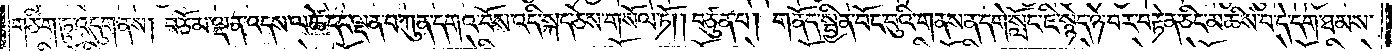གཅིག་ཏུ་འདུག་ནས། བཅོམ་ལྡན་འདས་ལ་ཚེ་དང་ལྡན་པ་ཀུན་དགའ་བོས་འདི་སྐད་ཅེས་གསོལ་ཏོ། །བཙུན་པ། གནོད་སྦྱིན་བོང་བུའི་གནས་ན་དགེ་སློང་ཇི་སྙེད་ཉེ་བར་བརྟེན་ཅིང་མཆིས་པ་དེ་དག་ཐམས་
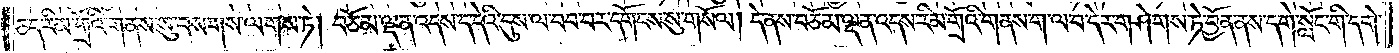ཅད་རིམ་གྲོའི་གནས་སུ་བསགས་ལགས་ཏེ། བཅོམ་ལྡན་འདས་ད་དེའི་དུས་ལ་བབ་པར་དགོངས་སུ་གསོལ། །དེ་ནས་བཅོམ་ལྡན་འདས་རིམ་གྲོའི་གནས་ག་ལ་བ་དེར་གཤེགས་ཏེ་བྱོན་ནས་དགེ་སློང་གི་དགེ་
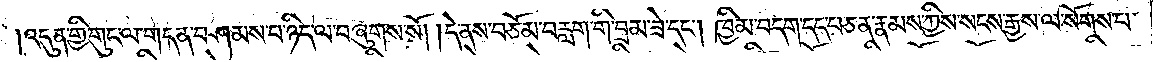འདུན་གྱི་གུང་ལ་གདན་བཤམས་པ་ཉིད་ལ་བཞུགས་སོ། །དེ་ནས་བཅོམ་བརླག་གི་བྲམ་ཟེ་དང༌། ཁྱིམ་བདག་དད་པ་ཅན་རྣམས་ཀྱིས་སངས་རྒྱས་ལ་སོགས་པ་
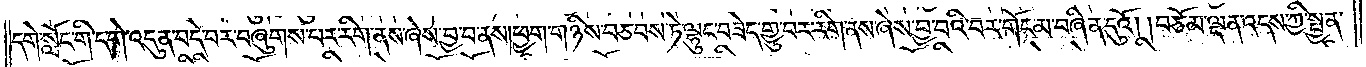དགེ་སློང་གི་དགེ་འདུན་བདེ་བར་བཞུགས་པར་རིག་ནས་ཞེས་བྱ་བ་ནས། ཕྱག་གཉིས་བཅབས་ཏེ་ལྷུང་བཟེད་གྱུ་བར་རིག་ནས་ཞེས་བྱ་བའི་བར་གོང་མ་བཞིན་དུའོ། །བཅོམ་ལྡན་འདས་ཀྱི་སྤྱན་
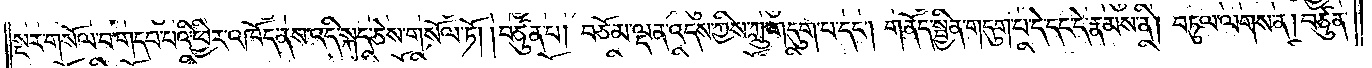སྔར་གསོལ་བ་གདབ་པའི་ཕྱིར་འཁོད་ནས་འདི་སྐད་ཅེས་གསོལ་ཏོ། །བཙུན་པ། བཅོམ་ལྡན་འདས་ཀྱིས་ཀླུ་གདུག་པ་དང༌། གནོད་སྦྱིན་གདུག་པ་དེ་དང་དེ་རྣམས་ནི། བཏུལ་ལགས་ན། བཙུན་
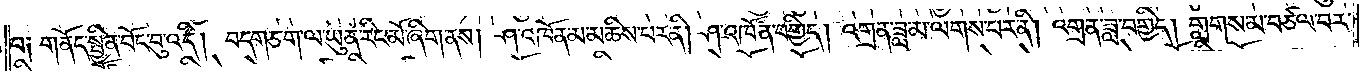པ༑ གནོད་སྦྱིན་བོང་བུ་འདི། བདག་ཅག་ལ་ཡུན་རིང་མོ་ཞིག་ནས། ཤ་འཁོན་མ་མཆིས་པར་ནི། ཤ་འཁོན་བགྱིད། འགྲན་ཟླ་མ་ལགས་པར་ནི། འགྲན་ཟླ་བགྱིད། གླགས་མ་བཙལ་བར་
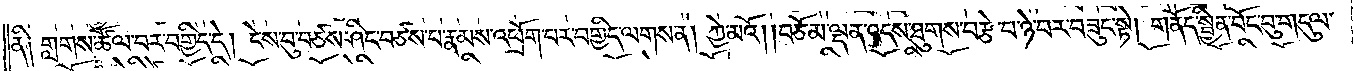ནི༑ གླགས་ཚོལ་བར་བགྱིད་དེ། ངེས་བུ་བཙས་ཤིང་བཙས་པ་རྣམས་འཕྲོག་པར་བགྱིད་ལགས་ན། ཀྱེ་མའོ། །བཅོམ་ལྡན་འདས་ཐུགས་བརྩེ་བ་ཉེ་བར་བཟུང་སྟེ། གནོད་སྦྱིན་བོང་བུ་གདུལ་
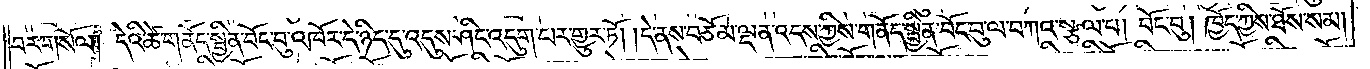བར་གསོལ༑ དེའི་ཚེ་གནོད་སྦྱིན་བོང་བུ་འཁོར་དེ་ཉིད་དུ་འདུས་ཤིང་འདུག་པར་གྱུར་ཏོ། །དེ་ནས་བཅོམ་ལྡན་འདས་ཀྱིས་གནོད་སྦྱིན་བོང་བུ་ལ་བཀའ་སྩལ་པ། བོང་བུ། ཁྱོད་ཀྱིས་ཐོས་སམ།
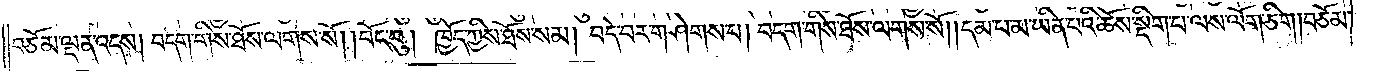བཅོམ་ལྡན་འདས། བདག་གིས་ཐོས་ལགས་སོ། །བོང་བུ། ཁྱོད་ཀྱིས་ཐོས་སམ། བདེ་བར་གཤེགས་པ། བདག་གིས་ཐོས་ལགས་སོ། །དམ་པ་མ་ཡིན་པའི་ཆོས་སྡིག་པ་ལས་ལོག་ཅིག །བཅོམ་
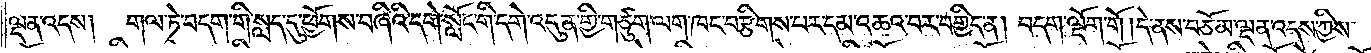ལྡན་འདས། གལ་ཏེ་བདག་གི་སླད་དུ་ཕྱོགས་བཞིའི་དགེ་སློང་གི་དགེ་འདུན་གྱི་གཙུག་ལག་ཁང་བརྩིགས་པར་དམ་འཆའ་བར་བགྱིད་ན། བདག་ལྡོག་གོ །དེ་ནས་བཅོམ་ལྡན་འདས་ཀྱིས་
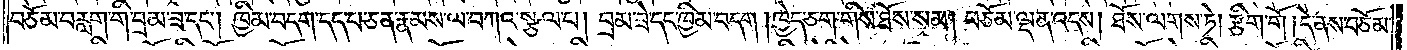བཅོམ་བརླག་གི་བྲམ་ཟེ་དང༌། ཁྱིམ་བདག་དད་པ་ཅན་རྣམས་ལ་བཀའ་སྩལ་པ། བྲམ་ཟེ་དང་ཁྱིམ་བདག །ཁྱེད་ཅག་གིས་ཐོས་སམ། བཅོམ་ལྡན་འདས། ཐོས་ལགས་ཏེ། རྩིག་གོ །དེ་ནས་བཅོམ་
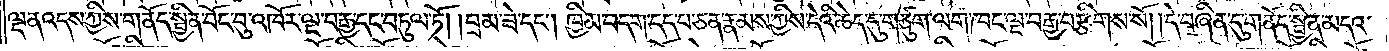ལྡན་འདས་ཀྱིས་གནོད་སྦྱིན་བོང་བུ་འཁོར་ལྔ་བརྒྱ་དང་བཏུལ་ཏོ། །བྲམ་ཟེ་དང༌། ཁྱིམ་བདག་དད་པ་ཅན་རྣམས་ཀྱིས་དེའི་ཆེད་དུ་གཙུག་ལག་ཁང་ལྔ་བརྒྱ་བརྩིགས་སོ། །དེ་བཞིན་དུ་གནོད་སྦྱིན་མདའ་
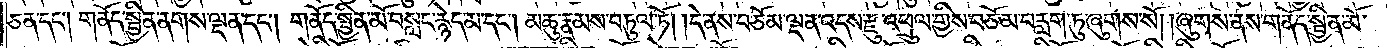ཅན་དང༌། གནོད་སྦྱིན་ནགས་ལྡན་དང༌། གནོད་སྦྱིན་མོ་བསླང་རྙེད་མ་དང༌། མཆུ་རྣམས་བཏུལ་ཏོ། །དེ་ནས་བཅོམ་ལྡན་འདས་རྫུ་འཕྲུལ་གྱིས་བཅོམ་བརླག་ཏུ་ཞུགས་སོ། །ཞུགས་ནས་གནོད་སྦྱིན་མོ་
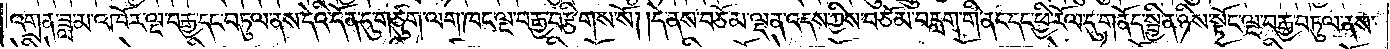འགྲན་ཟླ་མ་འཁོར་ལྔ་བརྒྱ་དང་བཏུལ་ནས་དེའི་དོན་དུ་གཙུག་ལག་ཁང་ལྔ་བརྒྱ་བརྩིགས་སོ། །དེ་ནས་བཅོམ་ལྡན་འདས་ཀྱིས་བཅོམ་བརླག་གི་ནང་དང་ཕྱི་རོལ་དུ་གནོད་སྦྱིན་ཉིས་སྟོང་ལྔ་བརྒྱ་བཏུལ་ནས་
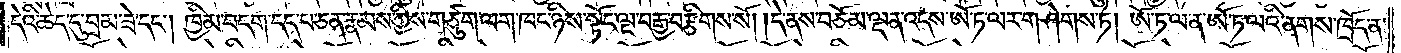དེའི་ཆེད་དུ་བྲམ་ཟེ་དང༌། ཁྱིམ་བདག་དད་པ་ཅན་རྣམས་ཀྱིས་གཙུག་ལྷག་ཁང་ཉིས་སྟོང་ལྔ་བརྒྱ་བརྩིགས་སོ། །དེ་ནས་བཅོམ་ལྡན་འདས་ཨོ་ཏ་ལར་གཤེགས་ཏེ། ཨོ་ཏ་ལ་ན་ཨོ་ཏ་ལའི་ནགས་ཁྲོད་ན་
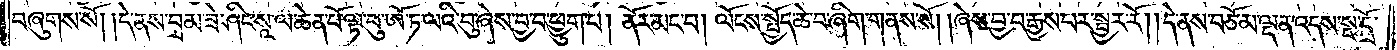བཞུགས་སོ། །དེ་ནས་བྲམ་ཟེ་ཤིང་སཱ་ལ་ཆེན་པོ་ལྟ་བུ་ཨོ་ཏ་ལའི་བུ་ཞེས་བྱ་བ་ཕྱུག་པ། ནོར་མང་བ། ལོངས་སྤྱོད་ཆེ་བ་ཞིག་གནས་སོ། །ཞེས་བྱ་བ་རྒྱས་པར་སྦྱར་རོ། །དེ་ནས་བཅོམ་ལྡན་འདས་སྔ་དྲོ་
